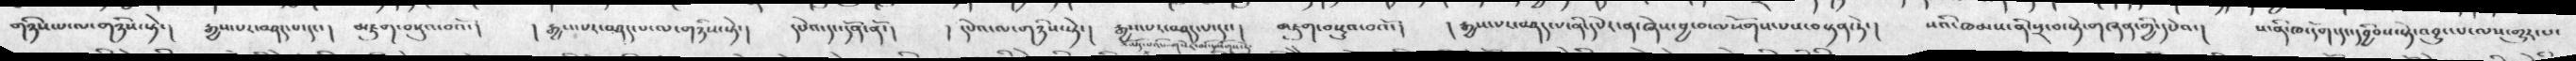གཉིས་པ་ལ་གཉིས་སྟེ་།  རྒྱས་པར་བཤད་པ་དང་།   མཇུག་བསྡུའ་བའོ་།   ། རྒྱས་པར་བཤད་པ་ལ་གཉིས་སྟེ་།   དཔེའ་དང་དོན་ནོ་།  ། དཔེའ་ལ་གཉིས་སྟེ་།  རྒྱས་པར་བཤད་པ་དང་།  མཇུག་བསྡུའ་བའོ་།  ། རྒྱས་པར་བཤད་པ་ནི་དཔེར་ན་ཞེས་བྱ་བ་ལསོགས་པས་བསྟན་ཏེ་།   སའི་ཁམས་ནི་སྲ་བ་སྟེ་གཞན་གྱི་དཔེའ་།  ས་ནི་ཁ་དོག་དང་དབྱིབས་སྟེ་འབྱུང་པ་ལས་གྱུར་པ་
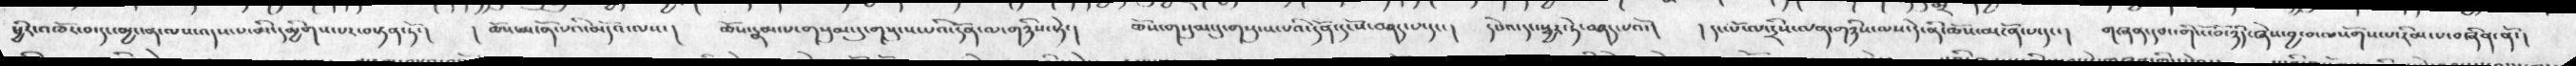ཕྱིར་འཁོར་བ་དང་མྱ་ངན་ལས་འདས་པ་མི་དམྱིགས་པར་བསྟན་ཏོ་།   ། ཆོས་མངོན་པའི་མདོའ་ལས་།  ཆོས་རྣམ་པ་གསུམ་དུ་གསུངས་པའི་དོན་ལ་གཉིས་སྟེ་།   ཆོས་གསུམ་དུ་གསུངས་པའི་དོན་དངོས་བཤད་པ་དང་།   དཔེའ་དང་སྦྱར་ཏེ་བཤད་པའོ་།   ། དང་པོ་ལ་དྲིས་ལན་གཉིས་ལས་དེ་ནི་ཆོས་མངོན་པ་དང་།  གཞན་དབང་གི་ངོ་བོ་ཉིད་ཞེས་བྱ་བ་ལསོགས་པ་རིམ་པ་བཞིན་ནོ་།
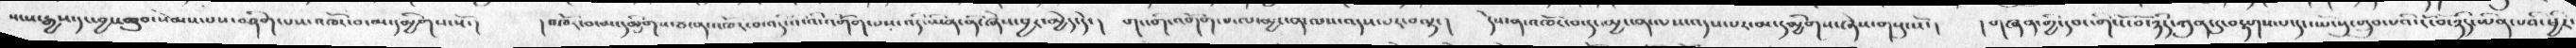སངས་རྒྱས་དང་བྱང་ཆུབ་སེམས་པས་བཤིག་པས་འཁོར་བ་མ་དམྱིགས་སོ་།   ། འཁོར་བ་མ་དམྱིགས་ཙ་ན་འཁོར་བ་འདིའི་མ་འགོག་པས་འདི་ཡིན་ནོ་ཞེས་བྱར་མྱེད་དེ་།   གང་གི་འགོག་པ་ལ་མྱ་ངན་ལས་འདས་པར་བལྟ་།  དེས་ན་འཁོར་བ་དང་མྱ་ངན་ལས་འདས་པར་མ་དམྱིགས་ཞེས་གསུངསོ་།  ། གཞན་གྱི་དབང་གིས་ངོ་བོ་ཉིད་ཀུན་དུ་བརྟགས་པ་དང་ཡོངསུ་གྲུབ་པའི་ངོ་བོ་ཉིད་ཡིན་པའི་ཕྱིར་
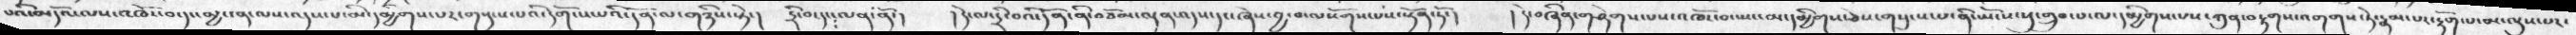པའི་མདོའ་ལས་འཁོར་བ་དང་མྱ་ངན་ལས་འདས་པའ་མི་དམྱིགས་པར་གསུངས་པའི་དགོངས་པའི་དོན་ལ་གཉིས་སྟེ་།  དྲི་བ་ལན་ནོ་།  ། དེ་ལ་དྲི་བའི་དོན་ན་བཅོམ་ལྡན་འདས་དང་ཞེས་བྱ་བ་ལསོགས་པས་སྟོན་ཏོ་།  ། དེ་བཞིན་གཤེགས་པས་འཁོར་བ་སྤང་མ་དམྱིགས་ཅེས་གསུངས་པ་ནི་ཡོངས་སུ་གྲུབ་པ་ལ་དམྱིགས་པས་ཀུན་བརྟག་འགགས་ཏེ་རྣམ་པར་རྟོག་མ་ལུས་པར་
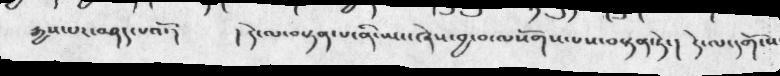རྒྱས་པར་བཤད་པའོ་།   ། དེ་ལ་བསྟན་པ་ནི་སྤང་ཞེས་བྱ་བ་ལསོགས་པས་བསྟན་ཏེ་།   དེ་ལ་དགོངས་
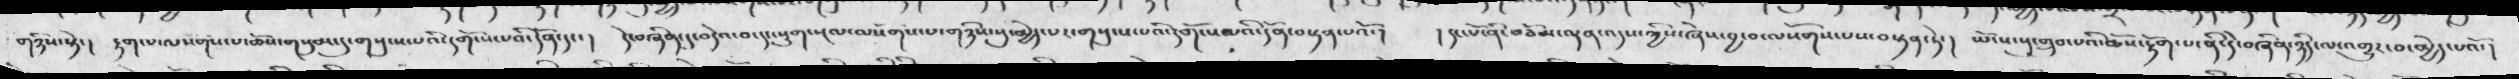གཉིས་སྟེ་། རྟག་པ་ལསོགས་པ་ཆོས་གསུམ་དུ་གསུངས་པའི་དགོངས་པའི་དོན་དང་།  དེ་བཞིན་དུ་བདེའ་བ་དང་སྡུག་སྔལ་ལསོགས་པ་གཉིས་སུ་མྱེད་པར་གསུམ་པའི་དགོངས་པའི་དོན་བསྟན་པའོ་། ། དང་པོ་ནི་བཅོམ་ལྡན་་འདས་ཀྱིས་ཞེས་བྱ་བ་ལསོགས་པས་བསྟན་ཏེ་།  ཡོངས་སུ་གྲུབ་པའི་ཆོས་རྟོག་པ་ནི་དེ་བཞིན་ཉིད་ལས་འགྱུར་བ་མྱེད་པའོ་།
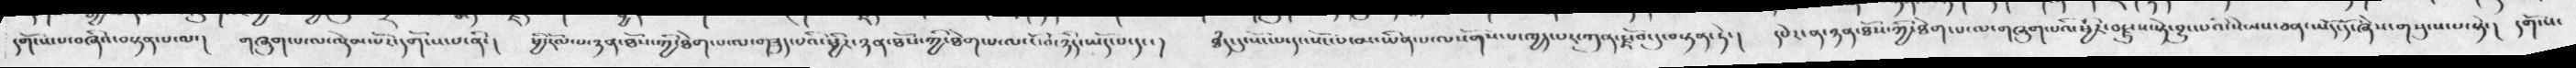དགོངས་པ་བཞིའ་བསྟན་པ་ལ་།   གཞུག་པ་ལ་འདེམ་པོར་དགོངས་པ་ནི་།  ཕྱི་རོལ་པ་ཉན་ཐོས་ཀྱི་ཐེག་པ་ལ་གཟུད་པའི་ཕྱིར་ཉན་ཐོས་ཀྱི་ཐེག་པ་ལ་ངོ་བོ་ཉིད་ཡོད་པ་དང་།  ཐཾད་དུ་སོང་པ་དང་སོང་པ་མ་ཡིན་པ་ལསོགས་པ་ཁྱད་པར་ཀུན་རྫོབ་དུ་བསྟན་ཏེ་།  དཔེར་ན་ཉན་ཐོས་ཀྱི་ཐེག་པ་ལ་གཞུག་པའི་ཕྱིར་བརྗུས་སྟེ་བྱུང་པའི་སེམས་ཅན་ཡོད་དོ་ཞེས་གསུངས་པ་སྟེ་།  དགོངས་
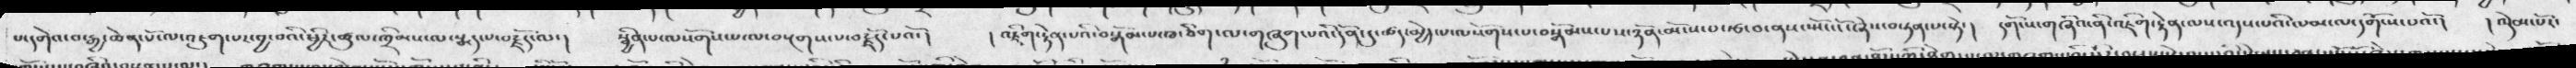པ་དགེའ་བ་རྒྱ་ཆེན་པོ་ལ་འཇུག་པར་བྱ་བའི་ཕྱིར་ཚུལ་ཁྲིམས་ལ་སྨད་པ་བརྗོད་ལ་།  སྦྱིན་པ་ལསོགས་པ་བསྔགས་པ་བརྗོད་པའོ་།   ། འཇིག་རྟེན་པའི་བསྒོམ་པ་ཁ་ཅིག་ལ་གཞུག་པའི་དོན་དུ་ཚད་མྱེད་པ་ལསོགས་པ་བསྒོམས་པས་ཉོན་མོངས་པ་རྩ་བ་ནས་སྤོང་ངོ་ཞེས་བསྟན་པ་སྟེ་།  དགོངས་གཞིའ་ནི་འཇིག་རྟེན་ལས་འདས་པའི་ལམ་ལ་དགོས་པའོ་།  ། འདེམ་པོར་
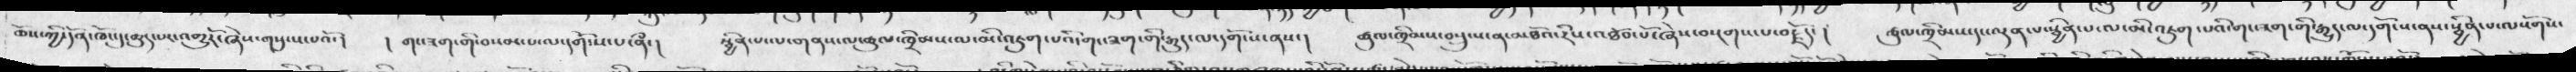ཆོས་ཀྱི་དོན་ཁོང་དུ་ཆུད་པར་འགྱུརོ་ཞེས་གསུངས་པའོ་།  ། གང་ཟག་གི་བསམ་པ་ལ་དགོངས་པ་ནི་། སྦྱིན་པ་ལ་གནས་ལ་ཚུལ་ཁྲིམས་ལ་མི་འཇུག་པའི་གང་ཟག་གི་རྒྱུད་ལ་དགོངས་ནས་།  ཚུལ་ཁྲིམས་བསྲུངས་ན་མཐོའ་རིས་འཐོབ་པོ་ཞེས་བསྔགས་པ་བརྗོད་།   ཚུལ་ཁྲིམས་དང་ལྡན་པ་སྦྱིན་པ་ལ་མི་འཇུག་པའི་གང་ཟག་གི་རྒྱུད་ལ་དགོངས་ནས་སྦྱིན་པ་ལསོགས་
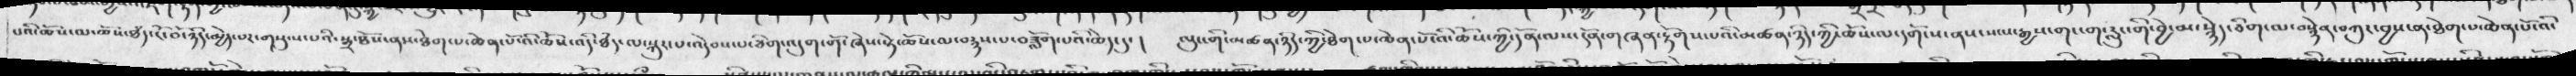པའི་ཆོས་ལ་ཆོས་ཐཾད་ངོ་བོ་ཉིད་མྱེད་པར་གསུངས་པའི་སྒྲ་ཐོས་ནས་ཐེག་པ་ཆེན་པོ་འི་ཆོས་འདི་ཐཾད་ལ་སྐུར་པ་འདེབས་པ་ཅིག་འདུག་གོ་ཞེས་སྟེ་ཆོས་མ་བརྙས་པ་བཟློག་པའི་ཆེད་དུ་།   ལུང་གི་མཚན་ཉིད་ཀྱི་ཐེག་པ་ཆེན་པོ་འི་ཆོས་ཀྱི་དོན་ལས་དོན་གཞན་རྟོགས་པའི་མཚན་ཉིད་ཀྱི་ཆོས་ལ་དགོངས་ནས་སངས་རྒྱས་གང་ག་རླུང་གི་བྱེ་མ་སྙེད་ཅིག་མ་བསྙེན་བཀུར་བྱས་ན་ཐེག་པ་ཆེན་པོ་འི་
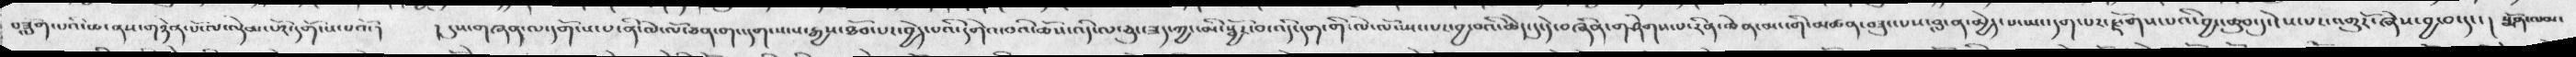བཟློག་པའི་ཆ་ནས་གཉེན་པོ་ལ་ལྡེམ་པའི་དགོངས་པའོ་།  ། དུས་གཞན་ལ་དགོངས་པ་ནི་ལེ་ལོ་ཅན་གང་དག་སངས་རྒྱས་ཐོབ་པར་བྱེད་པའི་དགེའ་བའི་ཆོས་འདི་ལ་ཅུང་ཟད་ཀྱང་མི་སྦྱོར་བ་འདི་དག་གི་ལེ་ལོ་སྤང་པར་བྱ་བའི་ཆེད་དུ་དེ་བཞིན་གཤེགས་པ་རིན་ཆེན་མང་གི་མཚན་བཟུང་པས་བླ་ན་མྱེད་པ་ཡང་དག་པར་རྫོགས་པའི་བྱང་ཆུབ་དུ་ངེས་པར་འགྱུརོ་ཞེས་བྱ་བ་དང་།  སྨོན་ལམ་
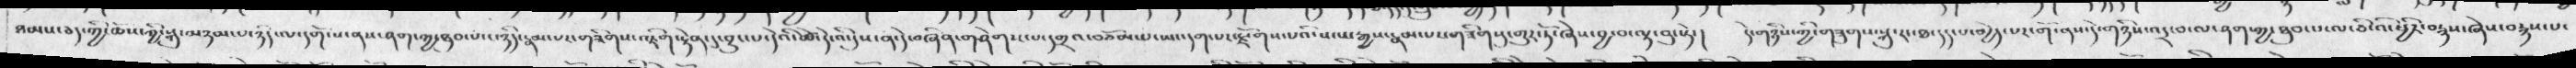ཐམས་ཅད་ཀྱི་ཆོས་ཀྱི་སྐུ་མཉམ་པ་ཉིད་ལ་དགོངས་ནས་ཤག་ཀྱ་ཐུབ་པ་ཉིད་རྣམ་པར་གཟིགས་འཇིག་རྟེན་དུ་བྱུང་པ་དེའི་ཚེ་དེ་འི་དུས་ན་དེ་བཞིན་གཤེགས་པ་དགྲའ་བཅོམ་པ་ཡང་དག་པར་རྫོགས་པའི་སངས་རྒྱས་རྣམ་པས་གཟིགསུ་གྱུར་ཏེ་ཞེས་བྱ་བ་ལྟ་བུ་སྟེ་།  དེ་གཉིས་ཀྱི་གཟུགས་སྐུ་རང་ཐ་དད་པ་མྱེད་པར་གོ་ནས་དེ་གཉིས་འདྲ་བ་ལ་ཤག་ཀྱ་ཐུབ་པ་ལ་ཅི་འི་ཕྱིར་བརྙས་ཞེས་བརྙས་པ་
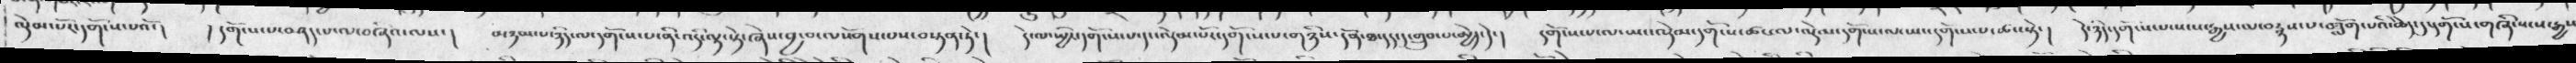ལྡེམ་པར་དགོངས་པའོ་།  ། དགོངས་པ་བཤད་པ་ལ་བཞིའ་ལས་།  མཉམ་པ་ཉིད་ལ་དགོངས་པ་ནི་འདི་ལྟ་སྟེ་ཞེས་བྱ་བ་ལ་སོགས་པས་བསྟན་ཏེ་།  དེ་ལ་སྤྱིར་དགོངས་པ་དང་འདེམ་སོང་དགོངས་པ་གཉིས་དོན་ཐ་དད་དུ་གྲུབ་པ་མྱེད་དེ་།  དགོངས་པ་ལ་ཡང་འདེམ་དགོངས་ཚང་ལ་ལྡེམ་དགོངས་ལ་ཡང་དགོངས་པ་ཚང་སྟེ་།  དེ་ཉིད་དགོངས་པ་སངས་རྒྱས་ལ་བརྙས་པ་བཟློག་པའི་ཆེད་དུ་དགོངས་གཞི་སངས་རྒྱས
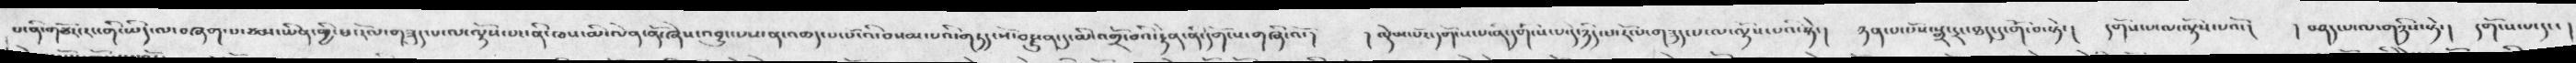པ་ནི་གཙོར་རང་གི་ཡིད་ལ་བཞག་པ་ཙམ་ཡིན་ཕྱི་ཕ་རོལ་གཟུད་པ་ལ་ལྟོས་པར་ནི་ཁས་མི་ལེན་ནོ་ཞེས་འབྱུང་པས་ན་འཆད་པ་པོ་འི་བསམ་པའི་གཏད་སོ་བརྫུན་དུ་མི་འགྲོ་བའི་རྟེན་ནི་དགོངས་གཞི་འོ་།    ། སྡེམ་པོར་དགོངས་པ་ནི་དགོངས་པ་དེ་ཉིད་ཕ་རོལ་གཟུད་པ་ལ་ལྟོས་པའི་སྟེ་།   ཉན་པ་པོས་སྒྲ་དྲང་ཐད་དུ་གོ་པ་སྟེ་།   དགོས་པ་ལ་ལྟོས་།   །  བཤད་པ་ལ་གཉིས་སྟེ་།   དགོངས་པ་དང་།
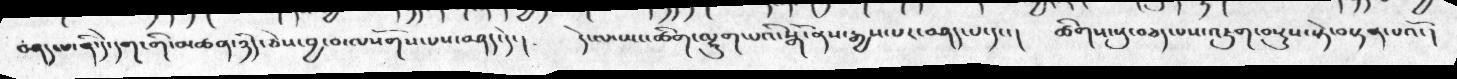བཤད་པ་ནི་དེ་དག་གི་མཚན་ཉིད་ཅེས་བྱ་བ་ལསོགས་པས་བཤད་དེ་།   དེ་ལ་ཡང་ཚིག་ལྷུག་པའི་སྒོ་ནས་རྒྱས་པར་བཤད་པ་དང་།   ཚིགས་སུ་བཅད་པས་འཇུག་བསྡུས་སྟེ་བསྟན་པའོ་།
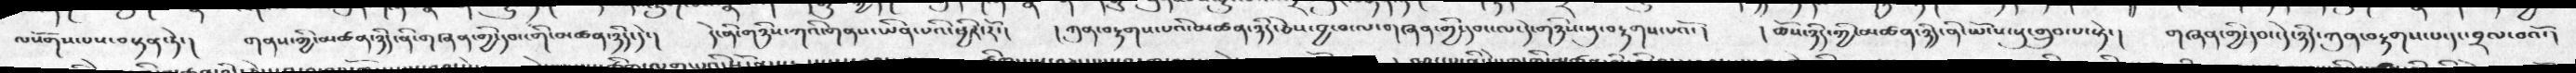ལསོགས་པས་བསྟན་ཏེ་།  གནས་ཀྱི་མཚན་ཉིད་ནི་གཞན་གྱི་དབང་གི་མཚན་ཉིད་དེ་།  དེ་ནི་གཉིས་ཀའི་གནས་ཡིན་པའི་ཕྱིར་རོ་།  ། ཀུན་བརྟགས་པའི་མཚན་ཉིད་ཅེས་བྱ་བ་ལ་གཞན་གྱི་དབང་ལ་དེ་གཉིས་སུ་བརྟགས་པའོ་།   ། ཆོས་ཉིད་ཀྱི་མཚན་ཉིད་ནི་ཡོངས་སུ་གྲུབ་པ་སྟེ་།  གཞན་གྱི་དབང་དེ་ཉིད་ཀུན་བརྟགས་པ་དང་བྲལ་བའོ་།
